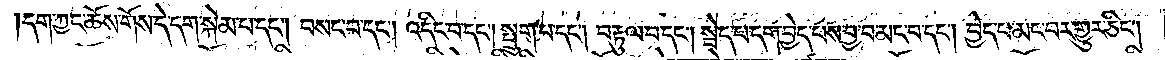དག་ཀྱང་ཆོས་གོས་དེ་དག་སྐེམ་པ་དང༌། བསང་བ་དང༌། འདིང་བ་དང༌། སྤྲུག་པ་དང༌། བརྟུལ་བ་དང༌། སྦེད་པ་དག་བྱེད་པས་བྱ་བ་མང་བ་དང༌། བྱེད་པ་མང་བར་གྱུར་ཅིང༌།
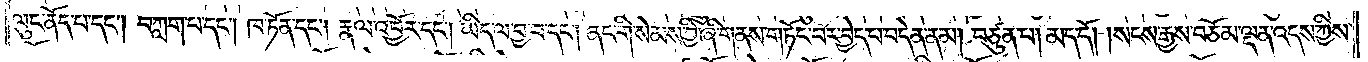ལུང་ནོད་པ་དང༌། བཀླག་པ་དང༌། ཁ་ཏོན་དང༌། རྣལ་འབྱོར་དང༌། ཡིད་ལ་བྱ་བ་དང༌། ནང་གི་སེམས་ཀྱི་ཞི་གནས་གཏོང་བར་བྱེད་པ་བདེན་ནམ། བཙུན་པ། མད་དོ། །སངས་རྒྱས་བཅོམ་ལྡན་འདས་ཀྱིས་
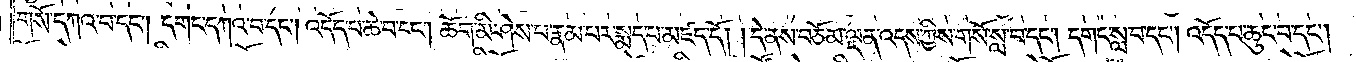གསོ་དཀའ་བ་དང༌། དགང་དཀའ་བ་དང༌། འདོད་པ་ཆེ་བ་དང༌། ཆོག་མི་ཤེས་པ་རྣམ་པར་སྨད་པ་མཛད་དོ། །དེ་ནས་བཅོམ་ལྡན་འདས་ཀྱིས་གསོ་སླ་བ་དང༌། དགང་སླ་བ་དང༌། འདོད་པ་ཆུང་བ་དང༌།
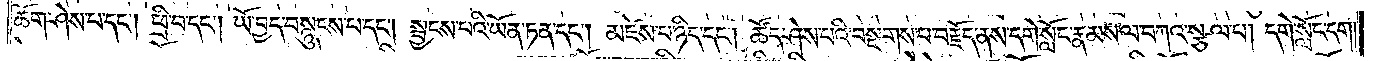ཆོག་ཤེས་པ་དང༌། ཕྲི་བ་དང༌། ཡོ་བྱད་བསྙུངས་པ་དང༌། སྦྱངས་པའི་ཡོན་ཏན་དང༌། མཛེས་པ་ཉིད་དང༌། ཚོད་ཤེས་པའི་བསྔགས་པ་བརྗོད་ནས་དགེ་སློང་རྣམས་ལ་བཀའ་སྩལ་པ། དགེ་སློང་དག་
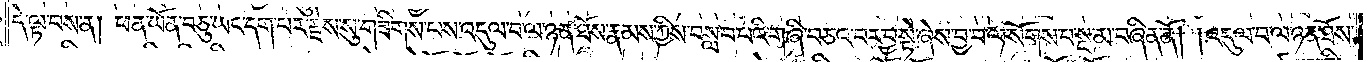དེ་ལྟ་བས་ན། ཕན་ཡོན་བཅུ་ཡང་དག་པར་རྗེས་སུ་གཟིགས་པས་འདུལ་བ་ལ་ཉན་ཐོས་རྣམས་ཀྱིས་བསླབ་པའི་གཞི་བཅའ་བར་བྱ་སྟེ་ཞེས་བྱ་བ་ལ་སོགས་པ་སྔ་མ་བཞིན་ནོ། །འདུལ་བ་ལ་ཉན་ཐོས་
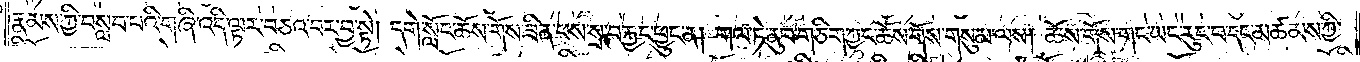རྣམས་ཀྱི་བསླབ་པའི་གཞི་འདི་ལྟར་བཅའ་བར་བྱ་སྟེ། དགེ་སློང་ཆོས་གོས་ཟིན་བས་སྲ་བརྐྱང་ཕྱུང་ན། གལ་ཏེ་ནུབ་གཅིག་ཀྱང་ཆོས་གོས་གསུམ་ལས། ཆོས་གོས་གང་ཡང་རུང་བ་དང་མཚམས་ཀྱི་
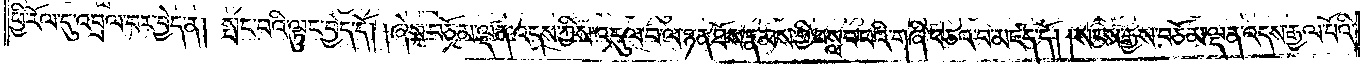ཕྱི་རོལ་དུ་འབྲལ་བར་བྱེད་ན། སྤང་བའི་ལྟུང་བྱེད་དོ། །ཞེས་བཅོམ་ལྡན་འདས་ཀྱིས་འདུལ་བ་ལ་ཉན་ཐོས་རྣམས་ཀྱི་བསླབ་པའི་གཞི་བཅའ་བ་མཛད་དོ། །སངས་རྒྱས་བཅོམ་ལྡན་འདས་རྒྱལ་པོའི་
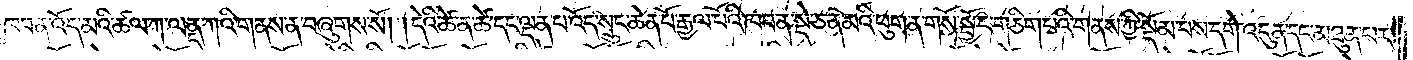ཁབ་ན་འོད་མའི་ཚལ་ཀ་ལནྡ་ཀའི་གནས་ན་བཞུགས་སོ། །དེའི་ཚེ་ན་ཚེ་དང་ལྡན་པ་འོད་སྲུང་ཆེན་པོ་རྒྱལ་པོའི་ཁབ་ན་སྡེ་ཅན་མའི་ཕུག་ན་གསོ་སྦྱོང་གཅིག་པའི་གནས་ཀྱི་སྡོམ་པས་དགེ་འདུན་དང་མཐུན་པར་
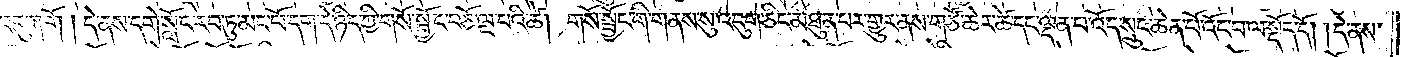འདུག་གོ །དེ་ནས་དགེ་སློང་རབ་ཏུ་མང་པོ་དག་དེ་ཉིད་ཀྱི་གསོ་སྦྱོང་བཅོ་ལྔ་པའི་ཚེ། གསོ་སྦྱོང་གི་གནས་སུ་འདུག་ཅིང་མཐུན་པར་གྱུར་ནས་གཙོ་ཆེར་ཚེ་དང་ལྡན་པ་འོད་སྲུང་ཆེན་པོ་འོང་བ་ལ་སྡོད་དོ། །དེ་ནས་
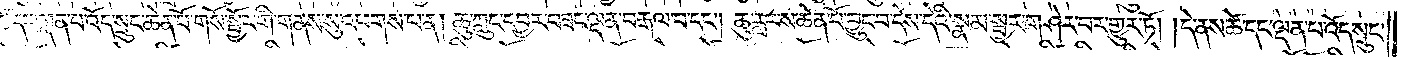ཚེ་དང་ལྡན་པ་འོད་སྲུང་ཆེན་པོ་གསོ་སྦྱོང་གི་གནས་སུ་འཕགས་པ་ན། ཆུ་ཀླུང་དབྱར་བཟང་ལྡན་བརྒལ་བ་དང༌། ཆུ་རླབས་ཆེན་པོ་བྱུང་བ་དེས་དེའི་སྣམ་སྦྱར་གཤར་བར་གྱུར་ཏོ། །དེ་ནས་ཚེ་དང་ལྡན་པ་འོད་སྲུང་
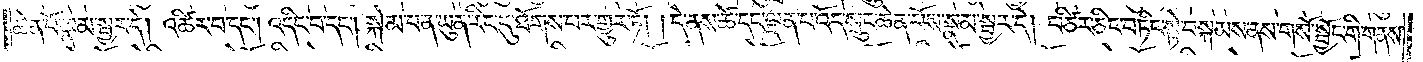ཆེན་པོ་སྣམ་སྦྱར་དེ། འཚིར་བ་དང༌། འདིང་བ་དང༌། སྐེམ་པ་ན་ཡུན་རིང་དུ་ཐོགས་པར་གྱུར་ཏོ། །དེ་ནས་ཚེ་དང་ལྡན་པ་འོད་སྲུང་ཆེན་པོས་སྣམ་སྦྱར་དེ། བཙིར་ཅིང་བཏིང་སྟེ་བསྐམས་ནས་གསོ་སྦྱོང་གི་གནས་
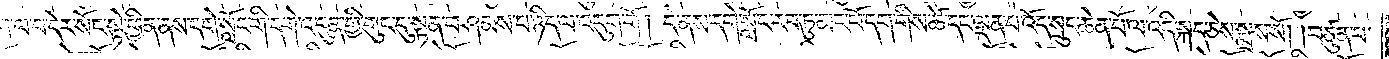ག་ལ་བ་དེར་སོང་སྟེ་ཕྱིན་ནས་དགེ་སློང་གི་དགེ་འདུན་གྱི་གུང་དུ་སྟན་བཤམས་པ་ཉིད་ལ་འདུག་གོ །དེ་ནས་དགེ་སློང་རབ་ཏུ་མང་པོ་དག་གིས་ཚེ་དང་ལྡན་པ་འོད་སྲུང་ཆེན་པོ་ལ་འདི་སྐད་ཅེས་སྨྲས་སོ། །བཙུན་པ་
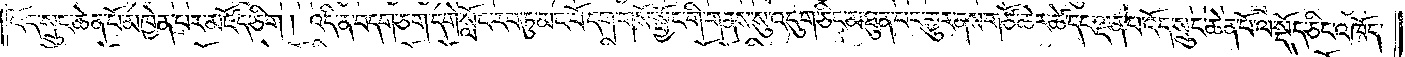འོད་སྲུང་ཆེན་པོ་མཁྱེན་པར་མཛོད་ཅིག །འདི་ན་བདག་ཅག་དགེ་སློང་རབ་ཏུ་མང་པོ་དག་གསོ་སྦྱོང་གི་གནས་སུ་འདུག་ཅིང་མཐུན་པར་གྱུར་ནས་གཙོ་ཆེར་ཚེ་དང་ལྡན་པ་འོད་སྲུང་ཆེན་པོ་ལ་སྡོད་ཅིང་འཁོད་
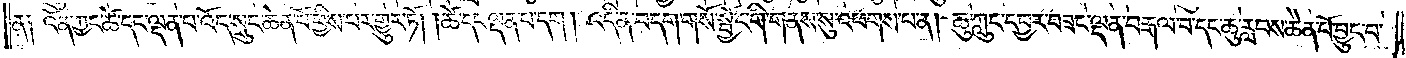ན༑ འོན་ཀྱང་ཚེ་དང་ལྡན་པ་འོད་སྲུང་ཆེན་པོ་ཕྱིས་པར་གྱུར་ཏོ། །ཚེ་དང་ལྡན་པ་དག །འདི་ན་བདག་གསོ་སྦྱོང་གི་གནས་སུ་འཕགས་པ་ན། ཆུ་ཀླུང་དབྱར་བཟང་ལྡན་བརྒལ་བ་དང་ཆུ་རླབས་ཆེན་པོ་བྱུང་བ་
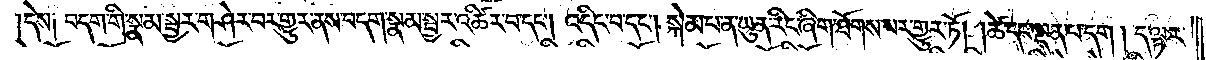དེས༑ བདག་གི་སྣམ་སྦྱར་གཤེར་བར་གྱུར་ནས་བདག་སྣམ་སྦྱར་འཚིར་བ་དང༌། འདིང་བ་དང༌། སྐེམ་པ་ན་ཡུན་རིང་ཞིག་ཐོགས་པར་གྱུར་ཏོ། །ཚེ་དང་ལྡན་པ་དག །ད་ལྟར་
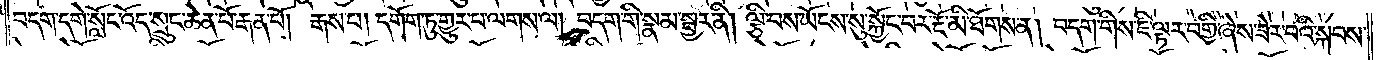བདག་དགེ་སློང་འོད་སྲུང་ཆེན་པོ་རྒན་པོ། རྒས་པ། དགོག་ཏུ་གྱུར་པ་ལགས་ལ། བདག་གི་སྣམ་སྦྱར་ནི། ལྕི་བས་ཡོངས་སུ་སྐྱོང་བར་རྔོ་མི་ཐོགས་ན། བདག་གིས་ཇི་ལྟར་བགྱི་ཞེས་ཟེར་བའི་སྐབས་
